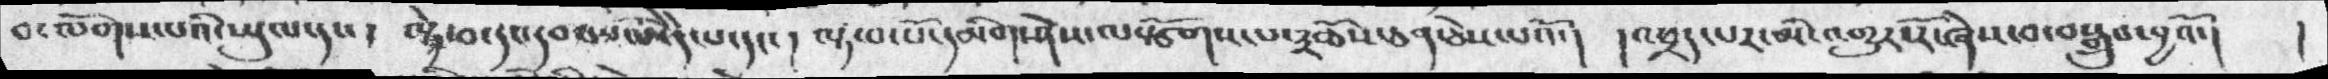བ་ལོགས་པའི་ཡུལ་དང་།  ལྟེ་བ་དང་དབང་པོ་ཨེདེ་པ་དང་།  ལྟ་བ་པོ་དམིག་ཤེས་ལསྩོགས་པ་༣ཆོས་ཅན་ཅེས་པའོ་།  ། འཕྲད་པར་མི་འགྱུར་རོ་ཞེས་བ་བསྒྲུབ་བྱའོ་།  །
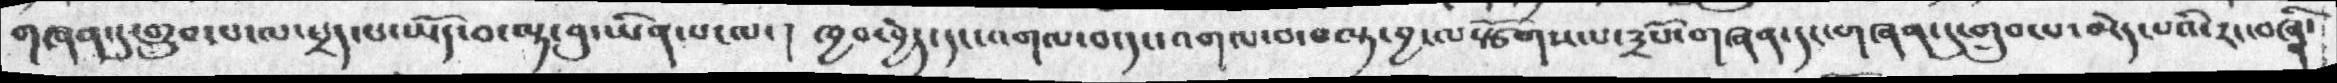གཞན་དུ་གྲུབ་པ་ལ་ཕྲད་པ་ཡོད་བ་ལྟ་བུ་ཡིན་པ་ལ་།   ཁྱབ་བྱེད་དང་འགལ་བ་དང་འགལ་བ་བལྟ་བྱ་ལསྩོགས་པ་༣པོ་གཞན་དང་གཞན་དུ་གྲུབ་པ་མེད་པའི་རང་བཞིན་
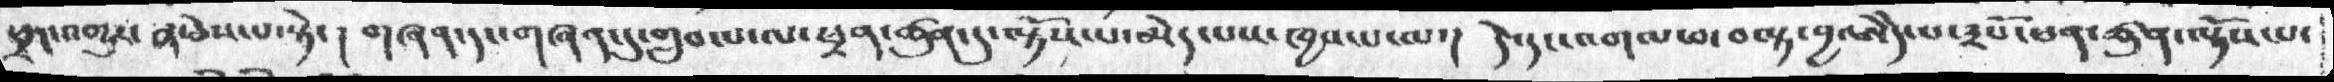ཕྲད་འགྱུར་ན་ཅེས་པ་སྟེ་།  གཞན་དང་གཞན་དུ་གྲུབ་པ་ལ་ཕྲན་ཚུན་དུ་ལྟོས་པ་མེད་པས་ཁྱབ་པ་ལ་།  དེ་དང་འགལ་བ་བལྟ་བྱ་ཨེདེ་པ་༣པོ་ཕན་ཚུན་ལྟོས་པ་
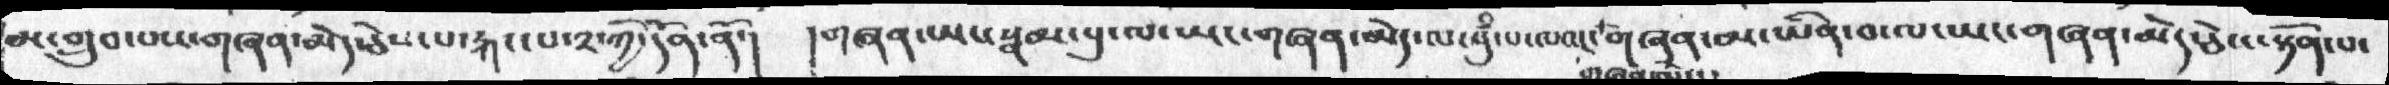མ་གྲུབ་པས་གཞན་མེད་ཅེས་པ་རྐང་པ་༢་ཀྱི་དོན་ནོ་།   ། གཞན་ཡང་སྣམ་བུ་ཡང་གཞན་མེད་ལ་བུཾ་པ་ལའང་གཞན་མ་ཡིན་བ་ལ་ཡང་གཞན་མེད་ཅེས་སྟོན་པ་
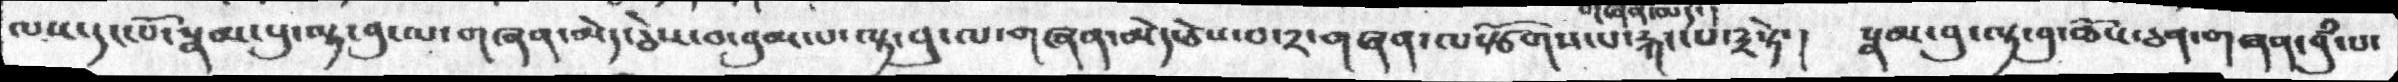ལས་དང་པོ་སྣམ་པུ་ལྟ་བུ་ལ་གཞན་མེད་ཅེས་བ་བུམ་པ་ལྟ་བུ་ལ་གཞན་མེད་ཅེས་པ་༢་གཞན་ལསྩོགས་པ་རྐང་པ་༣སྟེ་།   སྣམ་བུ་ལྟ་བུ་ཆོས་ཅན་གཞན་བུཾ་པ་
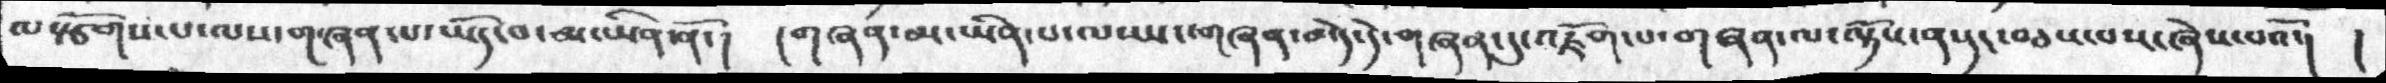ལསྩོགས་པ་ལས་གཞན་པ་ཡོད་བ་མ་ཡིན་ནོ་།  །གཞན་མ་ཡིན་པ་ལ་ཡང་གཞན་མེད་དེ་གཞན་དུ་འཇོག་པ་གཞན་ལ་ལྟོས་ན་དང་བཅས་པས་ཞེས་པའོ་། །
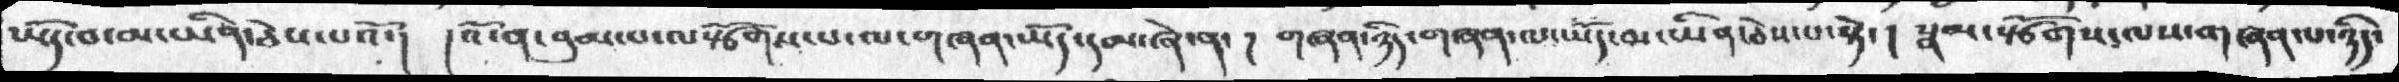ཡོད་བ་མ་ཡིན་ཅེས་པའོ་།  །འོ་ན་བུམ་པ་ལསྩོགས་པ་ལ་གཞན་ཡོད་དམ་ཞེ་ན་། གཞན་ཉིད་གཞན་ལ་ཡོད་མ་ཡིན་ཅེས་པ་སྟེ་།  སྣམ་སྩོགས་ལས་གཞན་པ་ཉིད་
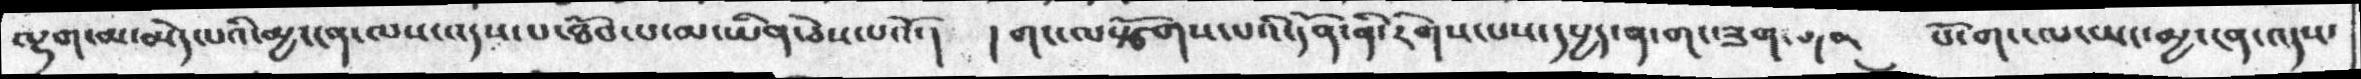ལྷག་མ་མེད་པའི་མྱ་ངན་ལས་འདས་པ་ཐོབ་པ་མ་ཡིན་ཅེས་པའོ་།   ། གང་ལསྩོགས་པའི་དོན་ནི་རིགས་པས་དཔྱད་ན་གང་ཟག་གན་པོ་གང་ལ་ཡང་མྱ་ངན་འདས་
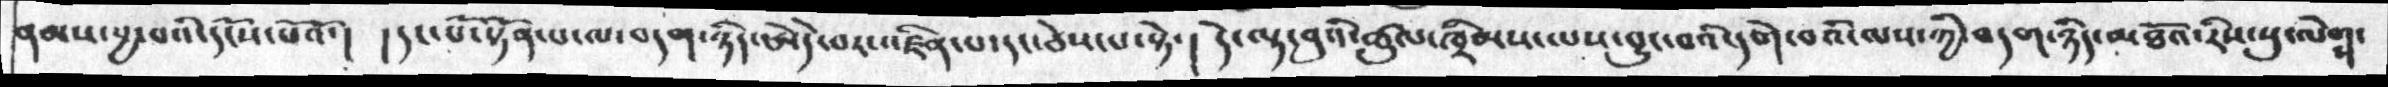ནམས་བྱ་པའི་དངོས་པའོ་།   ། དང་པོ་སྟོན་པ་ལ་བདག་ཉིད་ཨེདེ་བར་འཛིན་པ་དང་ཅེས་པ་སྟེ་།  དེ་ལྟ་བུའི་ཚུལ་ཁྲིམས་ལས་བྱུང་བའི་དགེ་བའི་ལས་ཀྱི་བདག་ཉིད་མཐོའ་རིས་སུ་ལེགས་
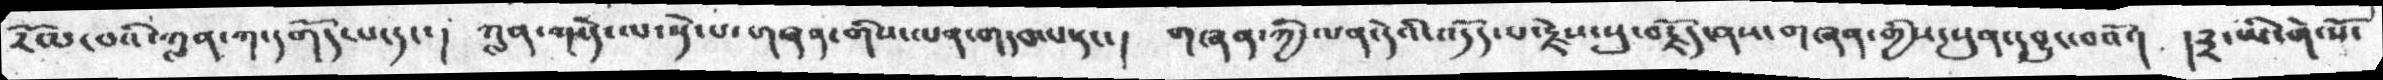རོམ་པའི་ཀླན་ལ་དགོད་པ་དང་། ཀླན་ཀ་དེ་ལ་སྡེ་པ་གཞན་གིས་ལན་གདབ་པ་དང་།  གཞན་ཀྱི་ལན་དེའི་འདོད་པ་རྗེས་སུ་བརྗོད་ནས་གཞན་གྱིས་སུན་དབྱུང་བའོ་། །༣་ཡི་གེ་སོ་
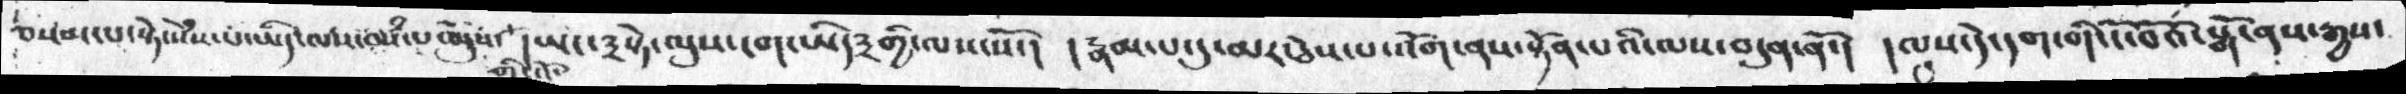བསམ་པ་སྟེ་སེཾས་པ་ཡིད་ལས་བསཾ་པ་ཆོསུས་ ། ཡང་༣སྟེ་ལུས་ངག་ཡིད༣གྱི་ལས་སོ་།  ། རྣམ་པ་དུ་མར་ཅེས་པ་འགོ་ནས་སྟོན་པའི་ལས་བདུུན་ནོ་།  ། ལས་དེ་དག་གི་ངོ་བོའི་སྒོ་་ས་རྒྱས་
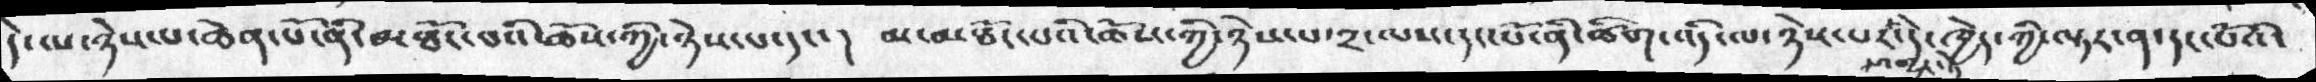དེ་ལ་ཉེས་པ་ཆེན་པོ་ནི་མཐོང་བའི་ཆོས་ཀྱི་ཉེས་པ་དང་།   མ་མཐོང་བའི་ཆོས་གྱ་ཉེས་པ་༢་ལས་དང་པོ་ནི་ཚིག་འདི་ལ་ཉེས་པར་འགྱུར་ཏེ་དེ་ཁྱེད་ཀྱི་ལྟར་ན་དང་པོའི་
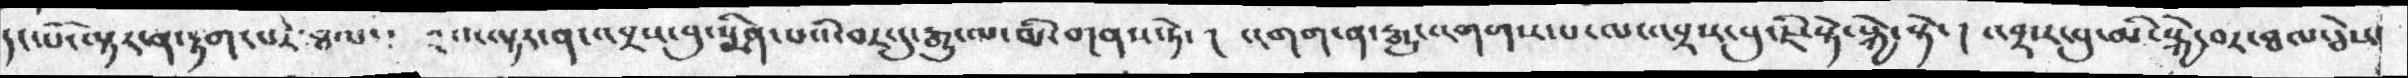དང་བོ་ལྟར་ན་རྟག་པར་ཐལ་  ༢པ་ལྟར་ན་འབྲས་བུ་སྨིན་པའི་བར་དུ་རྒྱུ་ལ་མི་གནས་ཏེ་།   འགག་ན་རྒྱུ་འགག་པ་ལ་འབྲས་བུ་ཇི་སྟེ་སྐྱེ་སྟེ་།  འབྲས་བུ་མི་སྐྱེ་བར་ཐལ་ཅེས་
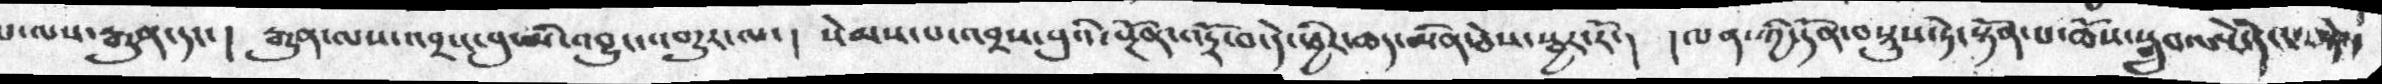པ་ལས་རྒྱུན་དང་།   རྒྱུན་ལས་འབྲས་བུ་མི་འབྱུང་འགྱུར་ལ་ ། སེམས་པ་འབྲས་བུའི་སྔོན་འདྲོ་བ་དེ་ཕྱིར་ཆད་མིན་ཅེས་སྦྱར་རོ་།  ། ལན་ཀྱི་དོན་བསྡུས་ཏེ་སྟོན་པ་ཆོས་སྒྲུབ་ཨེདེ་པ་སྟེ་
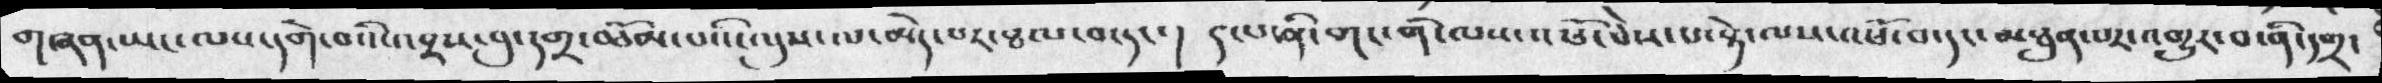གཞན་ཡང་ལས་དགེ་བའི་འབྲས་བུ་དགྲ་བཅོམ་པའི་ལུས་ལ་མེད་པར་ཐལ་བ་དང་།  ༩་པ་ནི་གང་གི་ལས་འཕོ་ཅེས་པ་སྟེ་ལས་འཕོ་བ་དང་མཐུན་པར་འགྱུར་བ་ནི་དགྲ་
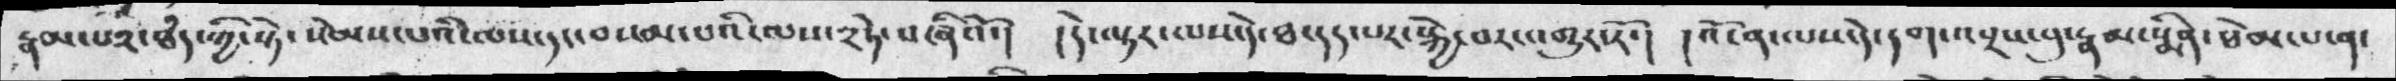རྣམ་པ༢་ཐདཾ་ཀྱི་སྟེ་ སེམས་པའི་ལས་དང་བསམ་པའི་ལས་༢ཏེ་བཞིའོ་།   །དེ་ལྟར་ལས་དེ་ཐ་དད་པར་སྐྱེ་བར་འགྱུར་རོ་།  །འོ་ན་ལས་དེ་དག་འབྲས་བུ་རྣམ་སྨིན་ཐེམ་པ་ན་
